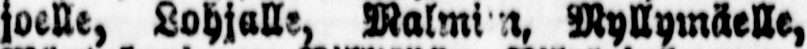joelle, Lohjalle, Malmi n Myllymäelle,
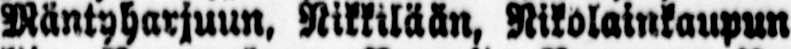Mäntyharjuun, Nikkilään, Nikolainkaupun-
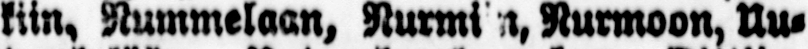kiin, Nummelaan, Nurmiin, Nurmoon, Uu-
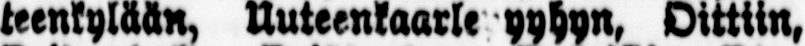teenkylään, Uuteenkaarle yyhyn, Oittiin,
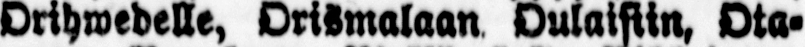Orihwedelle, Orismalaan Oulaisiin, Ota-
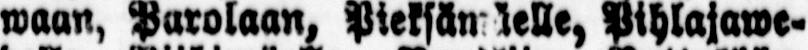waan, Parolaan, Pieksämäelle, Pihlajawe-
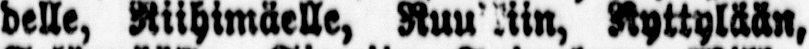delle, Riihimäelle, Ruu'kiin, Ryttylään,
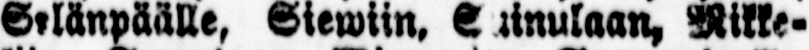Silänpäälle, Siewiin, S inulaan, Rikke-
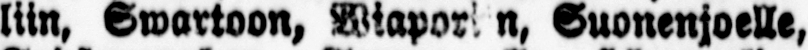liin, Swartoon, Wiapori n, Suonenjoelle,
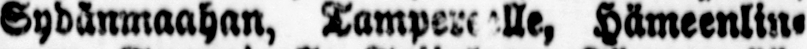Sydänmaahan, Tampereelle, Hämeenlin-
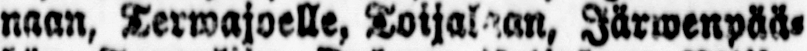naan, Terwajoelle, Toijalaan, Järwenpää-
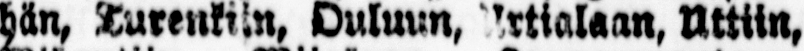hän, Turenkiin, Ouluun, Urtialaan, Uttiin,
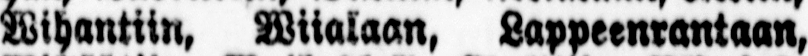Wihantiin, Wiialaan, Lappeenrantaan,
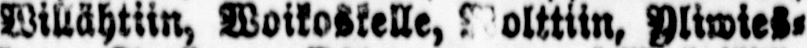Willähtiin, Woikoskelle, Wolttiin, Yliwies-
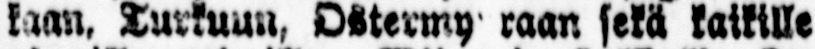kaan, Turkuun, Ostermy raan sekä kaikille
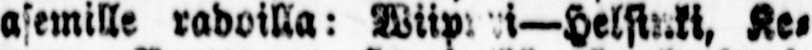asemille radoilla: Wiipr i—helsinki, Ke-
